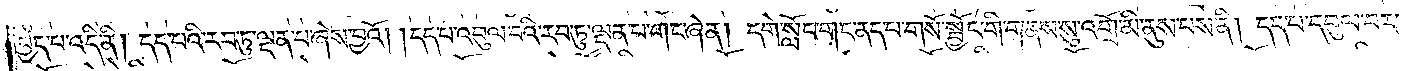བྱེད་པ་འདི་ནི། དད་པའི་རབ་ཏུ་ལྡན་པ་ཞེས་བྱའོ། །དད་པ་འབུལ་བའི་རབ་ཏུ་ལྡན་པ་གང་ཞེ་ན། དགེ་སློང་གང་ནད་པ་གསོ་སྦྱོང་གི་གནས་སུ་འགྲོ་མི་ནུས་པས་ནི། དད་པ་དབུལ་བར་
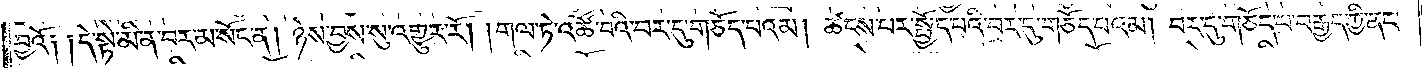བྱའོ༑ ༑དེ་སྟེ་མི་ན་བར་མ་སོང་ན། ཉེས་བྱས་སུ་འགྱུར་རོ། །གལ་ཏེ་འཚོ་བའི་བར་དུ་གཅོད་པའམ། ཚངས་པར་སྤྱོད་པའི་བར་དུ་གཅོད་པའམ། བར་དུ་གཅོད་པ་བརྒྱད་ཀྱི་ནང་
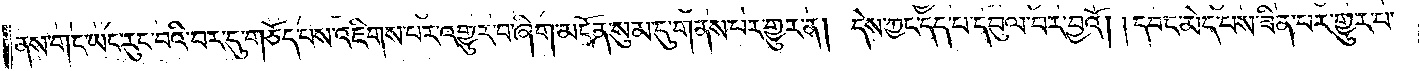ནས་གང་ཡང་རུང་བའི་བར་དུ་གཅོད་པས་འཇིགས་པར་འགྱུར་བ་ཞིག་མངོན་སུམ་དུ་གནས་པར་གྱུར་ན། དེས་ཀྱང་དད་པ་དབུལ་བར་བྱའོ། །དབང་མེད་པས་ཟིན་པར་གྱུར་པ་
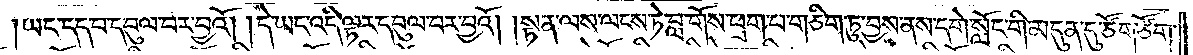ཡང་དད་པ་དབུལ་བར་བྱའོ། །དེ་ཡང་འདི་ལྟར་དབུལ་བར་བྱའོ། །སྟན་ལས་ལངས་ཏེ་བླ་གོས་ཕྲག་པ་གཅིག་ཏུ་བྱས་ནས་དགེ་སློང་གི་མདུན་དུ་ཙོག་ཙོག་
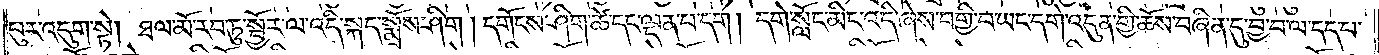པུར་འདུག་སྟེ། ཐལ་མོ་རབ་ཏུ་སྦྱོར་ལ་འདི་སྐད་སྨྲོས་ཤིག །དགོངས་ཤིག་ཚེ་དང་ལྡན་པ་དག །དགེ་སློང་མིང་འདི་ཞེས་བགྱི་བ་ཡང་དགེ་འདུན་གྱི་ཆོས་བཞིན་དུ་བྱ་བ་ལ་དད་པ་
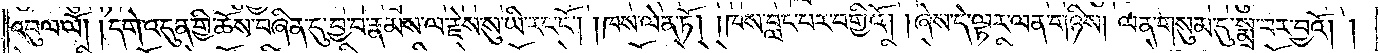འབུལ་ལོ། །དགེ་འདུན་གྱི་ཆོས་བཞིན་དུ་བྱ་བ་རྣམས་ལ་རྗེས་སུ་ཡི་རང་ངོ༌། །ཁས་ལེན་ཏོ། །ཁས་བླང་པར་བགྱིའོ། །ཞེས་དེ་ལྟར་ལན་གཉིས། །ལན་གསུམ་དུ་སྨྲ་བར་བྱའོ། །
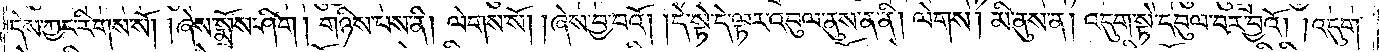དེས་ཀྱང་རིགས་སོ། །ཞེས་སྨྲོས་ཤིག །གཉིས་པས་ནི། ལེགས་སོ། །ཞེས་བྱ་བའོ། །དེ་སྟེ་དེ་ལྟར་འབུལ་ནུས་ན་ནི། ལེགས། མི་ནུས་ན། འདུག་སྟེ་དབུལ་བར་བྱའོ། །འདུག་
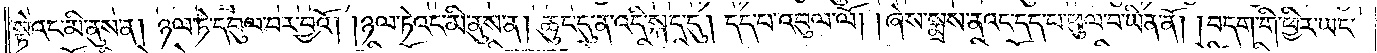སྟེའང་མི་ནུས་ན། ཉལ་ཏེ་དབུལ་བར་བྱའོ། །ཉལ་ཏེའང་མི་ནུས་ན། ཆུང་ངུ་ན་འདི་སྐད་དུ། དད་པ་འབུལ་ལོ། །ཞེས་སྨྲས་ནའང་དད་པ་ཕུལ་བ་ཡིན་ནོ། །བདག་གི་ཕྱིར་ཡང་
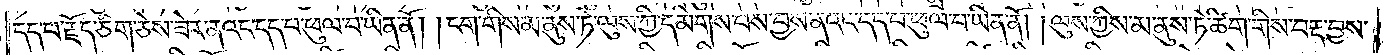དད་པ་རྗོད་ཅིག་ཅེས་ཟེར་ནའང་དད་པ་ཕུལ་བ་ཡིན་ནོ། །ངག་གིས་མ་ནུས་ཏེ་ལུས་ཀྱི་དམིགས་པས་བྱས་ནའང་དད་པ་ཕུལ་བ་ཡིན་ནོ། །ལུས་ཀྱིས་མ་ནུས་ཏེ་ཚིག་གིས་བརྡ་བྱས་
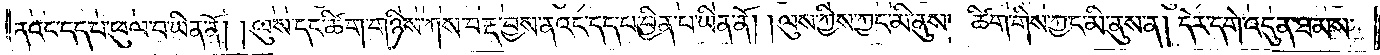ནའང་དད་པ་ཕུལ་བ་ཡིན་ནོ། །ལུས་དང་ཚིག་གཉིས་ཀས་བརྡ་བྱས་ནའང་དད་པ་བྱིན་པ་ཡིན་ནོ། །ལུས་ཀྱིས་ཀྱང་མི་ནུས། ཚིག་གིས་ཀྱང་མི་ནུས་ན། དེར་དགེ་འདུན་ཐམས་
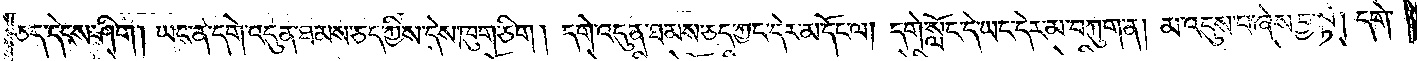ཅད་དེངས་ཤིག །ཡང་ན་དགེ་འདུན་ཐམས་ཅད་ཀྱིས་དེས་ཁུག་ཅིག། དགེ་འདུན་ཐམས་ཅད་ཀྱང་དེར་མ་དོང་ལ། དགེ་སློང་དེ་ཡང་དེར་མ་བཀུག་ན། མ་འདུས་པ་ཞེས་བྱ་སྟེ། དགེ་
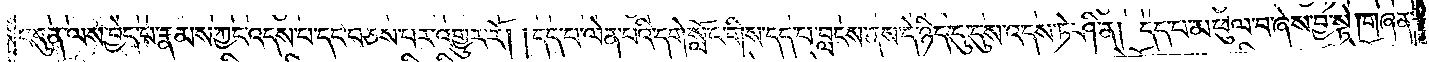འདུན་ལས་བྱེད་པ་རྣམས་ཀྱང་འདས་པ་དང་བཅས་པར་འགྱུར་རོ། །དད་པ་ལེན་པའི་དགེ་སློང་གིས་དད་པ་བླངས་ནས་དེ་ཉིད་དུ་དུས་འདས་ཏེ་ཤི་ན། དད་པ་མ་ཕུལ་བ་ཞེས་བྱ་སྟེ། གཞན་
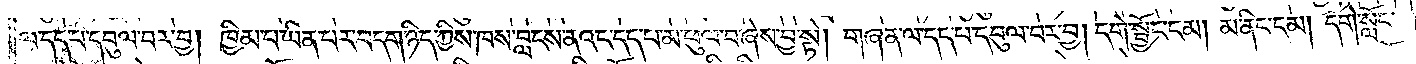ལ་དད་པ་དབུལ་བར་བྱ། ཁྱིམ་པ་ཡིན་པར་བདག་ཉིད་ཀྱིས་ཁས་བླངས་ནའང་དད་པ་མ་ཕུལ་བ་ཞེས་བྱ་སྟེ། གཞན་ལ་དད་པ་དབུལ་བར་བྱ། དགེ་སྦྱོང་ངམ། མ་ནིང་ངམ། དགེ་སློང་
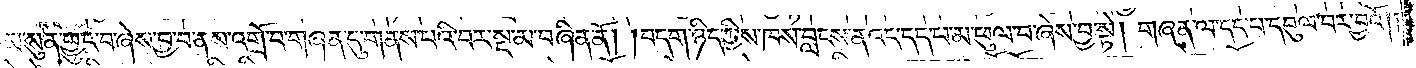མ་སུན་ཕྱུང་བ་ཞེས་བྱ་བ་ནས་འགྲོ་བ་གཞན་དུ་གནས་པའི་བར་སྔ་མ་བཞིན་ནོ། །བདག་ཉིད་ཀྱིས་ཁས་བླངས་ནའང་དད་པ་མ་ཕུལ་བ་ཞེས་བྱ་སྟེ། གཞན་ལ་དད་པ་དབུལ་བར་བྱའོ༎
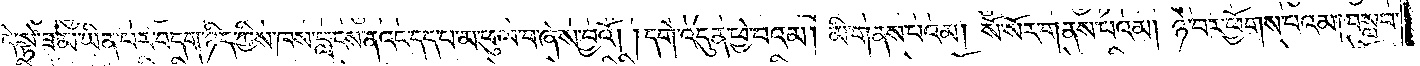དེ་སྟེ་ཟ་མ་ཡིན་པར་བདག་ཉིད་ཀྱིས་ཁས་བླངས་ནའང་དད་པ་མ་ཕུལ་བ་ཞེས་བྱའོ། །དགེ་འདུན་ཕྱེ་བའམ། མི་གནས་པའམ། སོ་སོར་གནས་པའམ། ཉེ་བར་ཕྱོགས་པའམ། བསླབ་
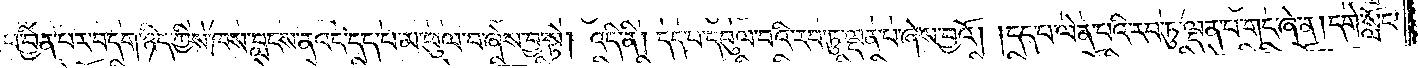པ་བྱིན་པར་བདག་ཉིད་ཀྱིས་ཁས་བླངས་ནའང་དད་པ་མ་ཕུལ་བ་ཞེས་བྱ་སྟེ། འདི་ནི། དད་པ་དབུལ་བའི་རབ་ཏུ་ལྡན་པ་ཞེས་བྱའོ། །དད་པ་ལེན་པའི་རབ་ཏུ་ལྡན་པ་གང་ཞེ་ན། དགེ་སློང་
